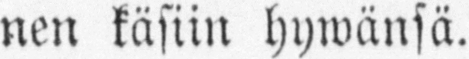nen käsiin hywänsä.
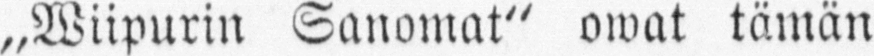„Wiipurin Sanomat" owat tämän
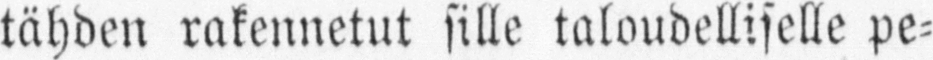tähden rakennetut sille taloudelliselle pe-
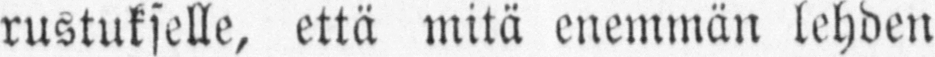rustukselle, että mitä enemmän lehden
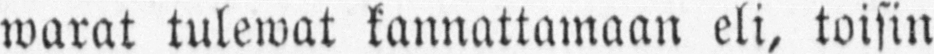warat tulewat kannattamaan eli, toisin
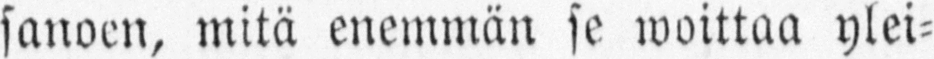sanoen, mitä enemmän se woittaa ylei-
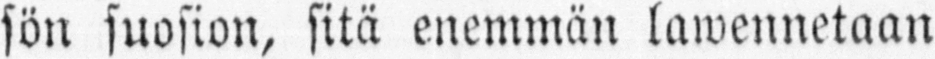sön suosion, sitä enemmän lawennetaan
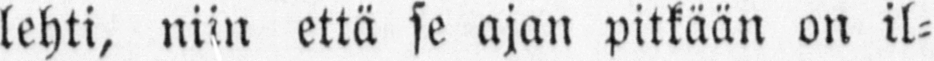lehti, niin että se ajan pitkään on il-
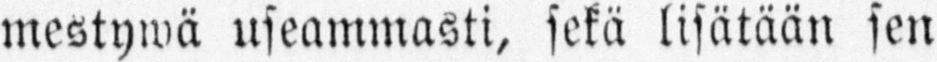mestywä useammasti, sekä lisätään sen
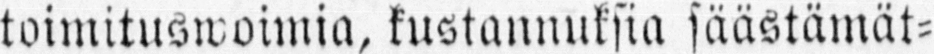toimituswoimia, kustannuksia säästämät-
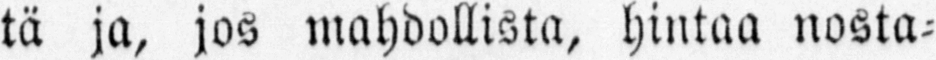tä ja, jos mahdollista, hintaa nosta-
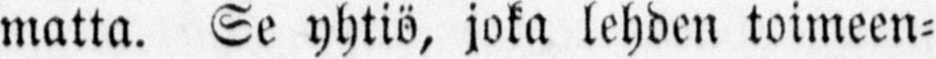matta. Se yhtiö, joka lehden toimeen-
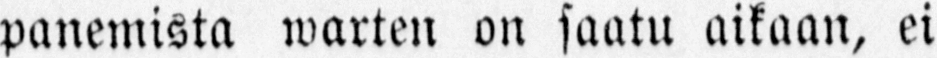panemista warten on saatu aikaan, ei
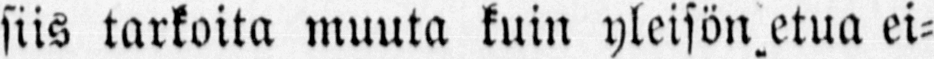siis tarkoita muuta kuin yleisön etua ei-
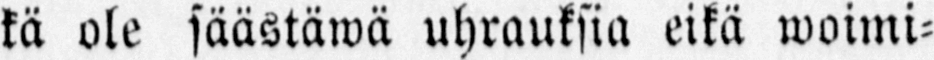kä ole säästäwä uhrauksia eikä woimi-
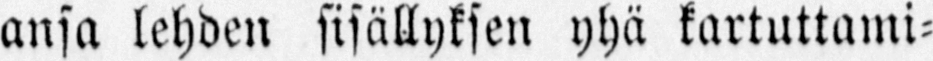ansa lehden sisällyksen yhä kartuttami-
